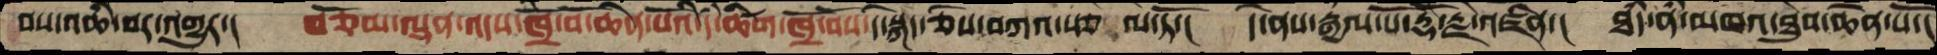བས་འཆི་བར་འགྱུར་།  བཅོམ་ལྡན་འདས་ཁྲོ་བོ་ཆེན་པོའི་དཾ་ཚིག་ཁྲོ་བོས་དེ་སྐད་ཅེས་བཀའ་སྩ ལ་ཏོ་།  དེ་ནས་རྒྱལ་པོ་རྡོ་རྗེ་འཛིན་།  ཐཾད་ནཾ་མཁའ་ཐུབ་ཆེན་པོ་།
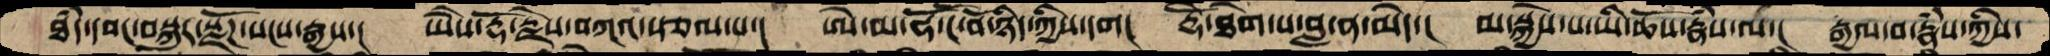ཐཾད་དབང་བསྐུར་སྫོཌ་སངས་རྒྱས་།  ཡཻས་རྡོ་རྗེས་བཀའ་སྩལ་པ་།  ཨེ་མ་ཧོ་ངོ་བོ་ཉིད་ཀྱིས་དག།  རྡོེ་ཐེག་པ་བླ་ན་མེད་།  མ་སྐྱེས་པ་ཡི་ཆོས་རྣཾས་ལ་།  རྒྱལ་བ་རྣཾས་ཀྱིས་
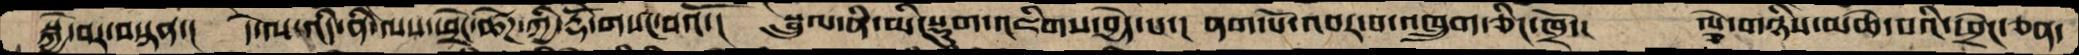སྐྱེ་བར་བསྟན་།  དེ་ལ་འདི་ནི་ལས་ཕྲེང་ཚེཌ་ཀྱི་རྡོེ་གསང་བའོ་།   སྦྲུལ་ནི་མི་སྡུག་འཇིགས་བྱེད་པ་།  ནག་པོ་འབར་བ་འཁྲུག་ཅིང་ཁྲོ་།    ལྕེ་གཉིས་མཆེ་བའི་ཕྲེང་ཅན་
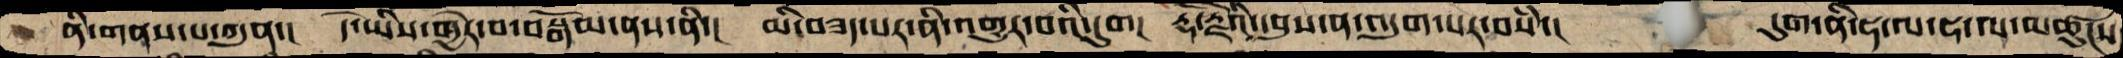ནི་གནས་པ་ཀུན་།  དེ་ཡིས་ཁྱེར་བ་བསྒོམ་ནས་ནི་།  མི་བཟད་པར་ནི་འགྱུར་བའི་དུག།  རྡོ་རྗེའི་དབུས་ན་འདུག་པར་བསཾ་།    དུག་ནི་ཧ་ལ་ཧ་ལ་མཚུངས
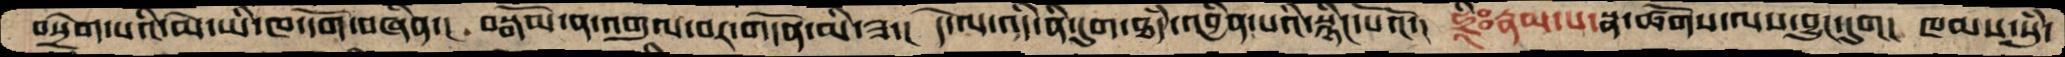བསྲེག་པའི་མེ་ཡི་ཁ་དོག་བཞིན་།  བསྒོམ་ན་འགུལ་བར་གདོན་མི་ཟ་།  དེ་ལ་འདི་ནི་དུག་ཐཾད་འབྱིན་པའི་སྙིང་པོའོ་།  ཧྲིཿརྣམ་པ་སྣ་ཚོགས་ལས་བྱུང་དུག།  ཁམས་སུཾ་
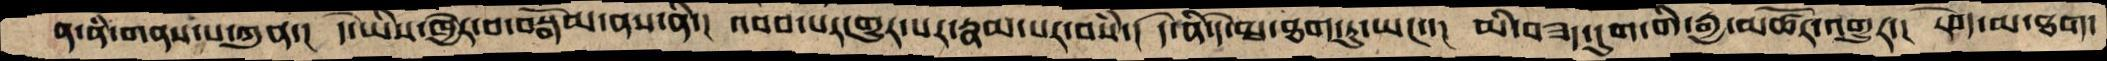ན་ནི་གནས་པ་ཀུན་།  དེ་ཡིས་ཁྱེར་བ་བསྒོམ་ནས་ནི་།  འབབ་པར་གྱུར་པར་རྣམ་པར་བསཾ་།  དེ་ནི་དེ་མ་ཐག་ཏུ་ཡང་་།  མི་བཟད་དུག་གི་རྒྱ་མཚོར་འགྱུར་།  རེག་མ་ཐག་
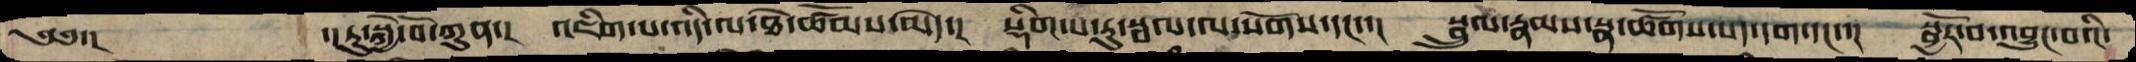༄༅་།     ་།ཏུ་སྐྱེ་བོ་ཀུན་།   འཇིག་པ་འདི་ལ་ཐེ་ཚོམས་མེད་།  སྡིག་པ་རུ་སྦལ་ལ་སོགས་དང་་།  སྦྲུལ་རྣམས་སྣ་ཚོགས་སད་དག་དང་་།   སྦྱོར་བ་འབྱུང་བའི་
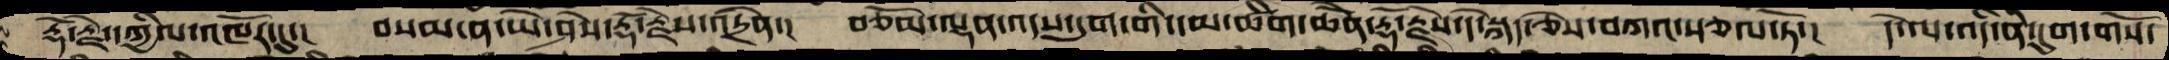རྡོ་རྗེ་དཀྱིལ་འཁོར་དུ་།    བསམ་ན་ཡེ་ཤེས་རྡོ་རྗེས་འདྲེན་།  བཅོམ་ལྡན་འདས་དུག་གི་དམ་ཚིག་ཆེནོ་རྡོ་རྗེས་དེ་སྐད་ཅེས་བཀའ་སྩལ་ཏོ་།   དེ་ལ་འདི་ནི་དུག་གསོ་
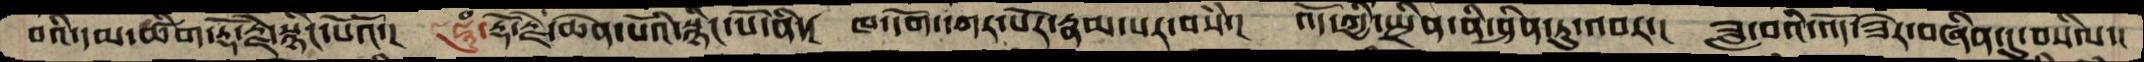བའི་དམ་ཚིག་རྡོ་རྗེ་སྙིང་པོའོ་།    ཧཱུཾ་རྡོ་རྗེ་ཆེན་པོའི་སྙིང་པོ་ནི་།  ཁ་དོག་དཀར་པོར་རྣམ་པར་བསཾ་།  འོད་ཀྱི་སྤྲིན་ནི་ཤིན་ཏུ་འབར་།  ཟླ་བའི་འོད་ཟེར་བཞིན་དུ་བསིལ་།
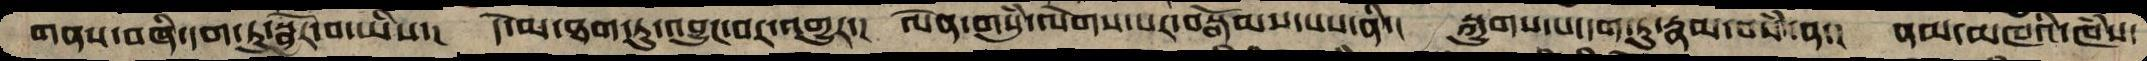གནས་བཞི་དག་ཏུ་སྦྱོར་བ་ཡིས་།  དེ་མ་ཐག་ཏུ་འབྱུང་བར་འགྱུར་།  ལེན་གསུཾ་ལེགས་པར་བསྒོམས་པས་ནི་།  སྐུགས་པ་དག་ཏུ་རྣམ་བསཾ་ན་།  ནམ་མཁའི་ཁཾས་
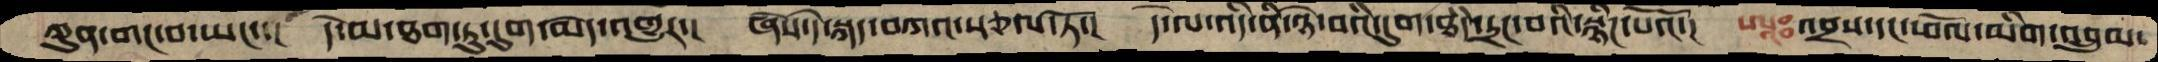ཀུན་གང་བ་ཡང་་།  དེ་མ་ཐག་ཏུ་དུག་མེད་འགྱུར་།  ཞེས་དེ་སྐད་བཀའ་སྩལ་ཏོ་།  དེ་ལ་འདི་ནི་ཉེ་བའི་དུག་ཐཾད་དྲང་བའི་སྙིང་པོའོ་།  ཨཱཿའབྲས་དང་ཕོལ་མིག་འབྲུམ་
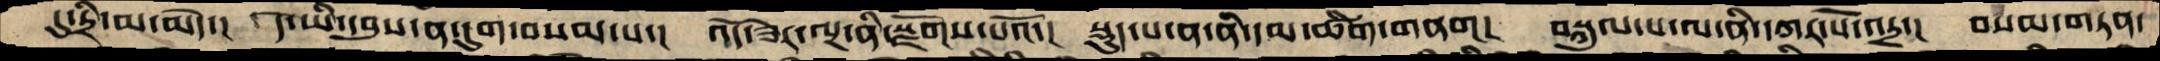དུ་དྲི་མ་མེད་།   དེ་ཡི་དབུས་ན་དུག་བསམ་པ་།  འོད་ཟེར་ལྔ་ནི་སྫོགས་པའོ་།  སྡུད་པ་ན་ནི་དམ་ཚིག་གནག།  བསྐུལ་པ་ལ་ནི་དཀར་པོ་འདྲ་།  བསམ་གཏན་
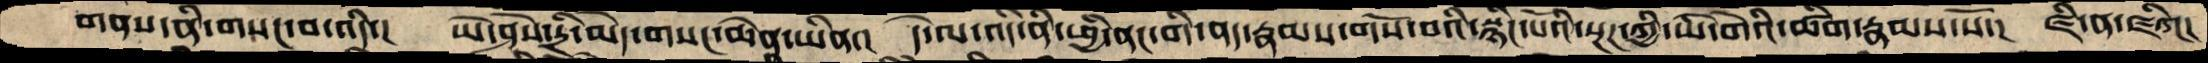གནས་ནི་གསང་བ་འདི་།  ཡེ་ཤེས་དྲི་མེད་གསང་ཆེན་ཡིན་།   དེ་ལ་འདི་ནི་ཕྱི་ནང་གི་ནད་རྣམས་གསོ་བའི་སྙིང་པོའི་སྔཌ་ཀྱི་ཡི་གེའི་ཚིག་རྣམས་སོ་།  ཛི་ན་ཛིཀ།
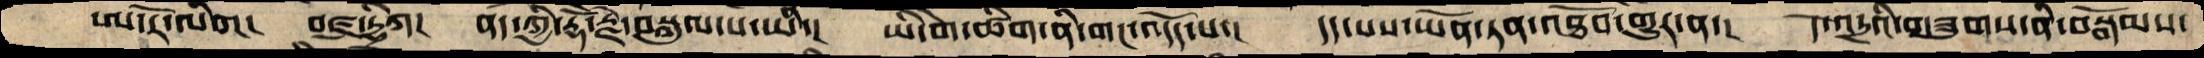ཨ་རོ་ལིག།  བཛྲ་དྷྲིཀ།  ནད་ཀྱི་རྡོ་རྗེ་བསྐུལ་པ་ཡི་།  ཡི་གེ་ཚིག་ནི་གང་འདོད་པ་།  དད་པས་ཡོན་ཏན་འཐོབ་གྱུར་ན་།  དེ་འདྲའི་གཟུགས་ནི་བསྒོམས་
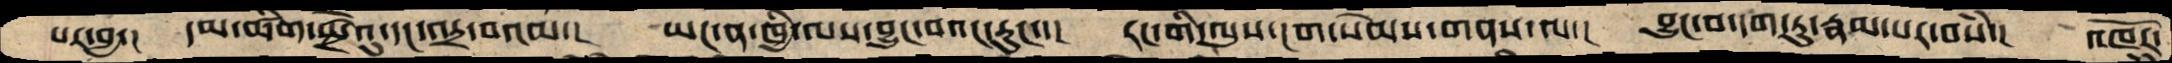པར་བྱ་།   དམ་ཚིག་སྤྲེའུ་དང་འདྲ་བའམ་།  ཡང་ན་ཁྱི་ལས་བྱུང་བའང་རུང་་།  རང་གི་ལུས་ངག་སེམས་གནས་ལ་།  བྱུང་བ་དག་ཏུ་རྣམ་པར་བསཾ་།  འཁོར་
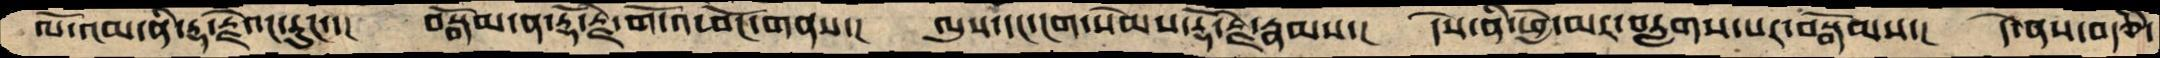ལོ་འམ་ནི་རྡ་རྗེའང་རུང་་།  བསྒོམ་ན་རྡོ་རྗེ་གོ་འཕོང་གནས་།  ལུས་དང་ངག་སེམས་རྡོ་རྗེ་རྣམས་།  དེས་ནི་ཕྱེ་མར་བརླགས་པར་བསྒོམས་།   དེ་ནས་བརྩི་
